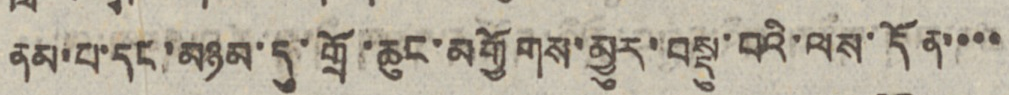ནམ་པ་དང་མཉམ་དུ་གྲོ་ཆུང་མགྱོགས་མྱུར་བསྡུ་བའི་ལས་དོན་་་་
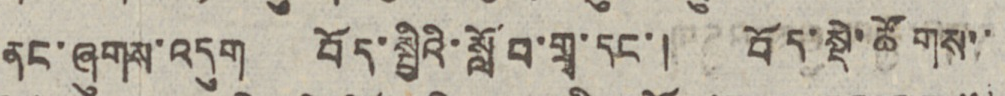ནང་ཞུགས་འདུག བོད་སྤྱིའི་སློབ་གྲྭ་དང་། བོད་སྡེ་ཚོགས་་
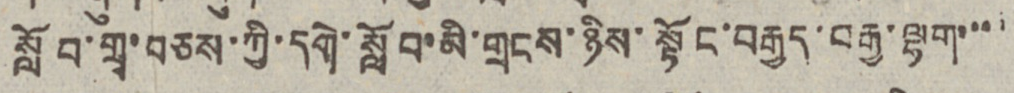སློབ་གྲྭ་བཅས་ཀྱི་དགེ་སློབ་མི་གྲངས་ཉིས་སྟོང་བརྒྱད་བརྒྱ་ལྷག་་་་
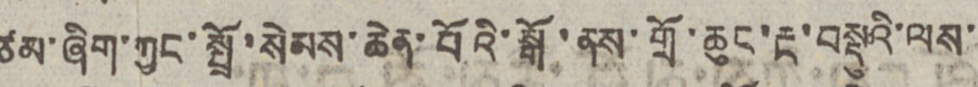ཙམ་ཞིག་ཀྱང་སྤྲོ་སེམས་ཆེན་པོའི་སྒོ་ནས་གྲོ་ཆུང་རྔ་བསྡུའི་ལས་
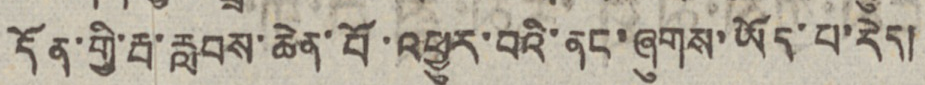དོན་གྱི་རྦ་རླབས་ཆེན་པོ་འཕྱུར་བའི་ནང་ཞུགས་ཡོད་པ་རེད།
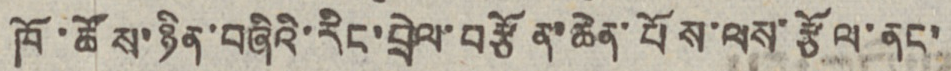ཁོ་ཚོས་ཉིན་བཞིའི་རིང་བྲེལ་བརྩོན་ཆེན་པོས་ལས་རྩོལ་ནང་
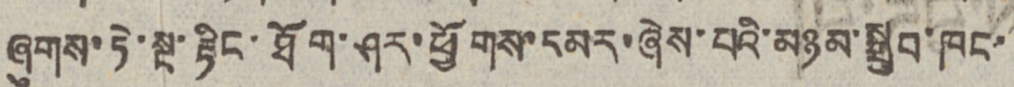ཞུགས་ཏེ་སྔ་རྟིང་ཐོག་ཤར་ཕྱོགས་དམར་ཞེས་པའི་མཉམ་སྒྲུབ་ཁང་
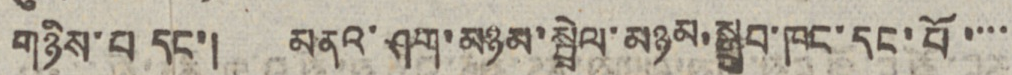གཉིས་པ དང་། མནའ་ཤག་མཉམ་སྤྲེལ་མཉམ་སྒྲུབ་ཁང་དང་པོ་་་་
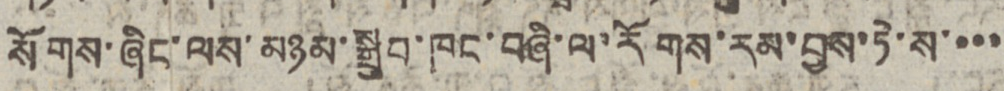སོགས་ཞིང་ལས་མཉམ་སྒྲུབ་ཁང་བཞི་ལ་རོགས་རམ་བྱས་ཏེ་ས་་་་
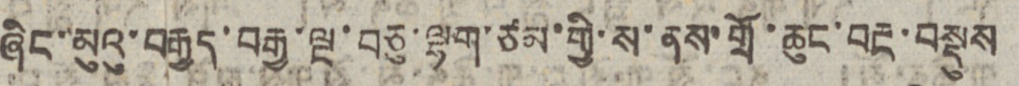ཞིང་མུའུ་བརྒྱད་བརྒྱ་ལྔ་བཅུ་ལྷག་ཙམ་གྱི་ས་ནས་གྲོ་ཆུང་བརྔ་བསྡུས
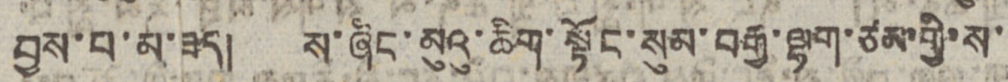བྱས་པ་མ་ཟད། ས་ཞིང་མུའུ་ཆིག་སྟོང་སུམ་བརྒྱ་ལྷག་ཙམ་གྱི་ས་
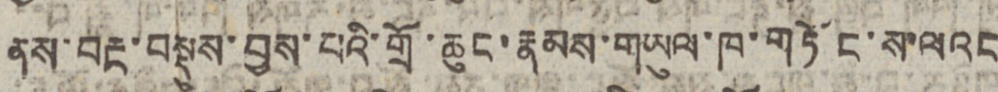ནས་བརྔ་བསྡུས་བྱས་པའི་གྲོ་ཆུང་རྣམས་གཡུལ་ཁ་གཏོང་ས་ལའང
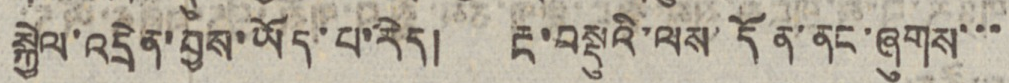སྐྱེལ་འདྲེན་བྱས་ཡོད་པ་རེད། རྔ་བསྡུའི་ལས་དོན་ནང་ཞུགས་་་
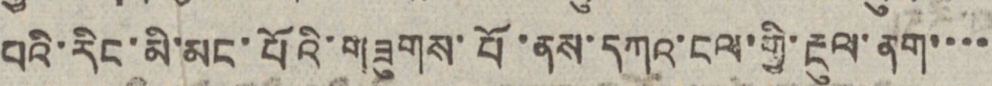པའི་རིང་མི་མང་པོའི་གཟུགས་པོ་ནས་དཀའ་ངལ་གྱི་རྔུལ་ནག་་་་
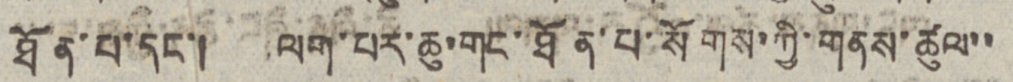ཐོན་པ་དང་། ལག་པར་ཆུ་གང་ཐོན་པ་སོགས་ཀྱི་གནས་ཚུལ་་
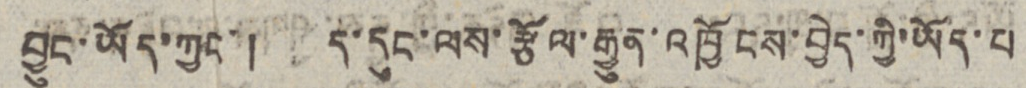བྱུང་ཡོད་ཀྱང་། ད་དུང་ལས་རྩོལ་རྒྱུན་འཁྱོངས་བྱེད་ཀྱི་ཡོད་པ
